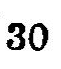30
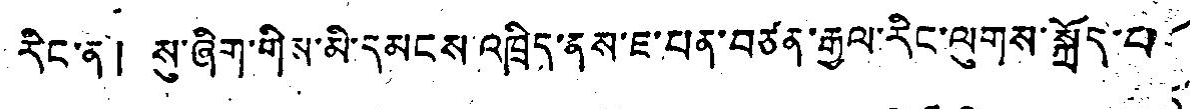རིང་ན། སུ་ཞིག་གིས་མི་དམངས་འཁྲིད་ནས་ཇ་པན་བཙན་རྒྱལ་རིང་ལུགས་སྐྱོད་པ་
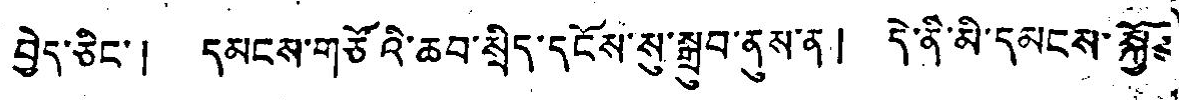བྱེད་ཅིང་། དམངས་གཙོའི་ཆབ་སྲིད་དངོས་སུ་སྒྲུབ་ནས་ན། དེ་ནི་མི་དམངས་སྐྱོན་
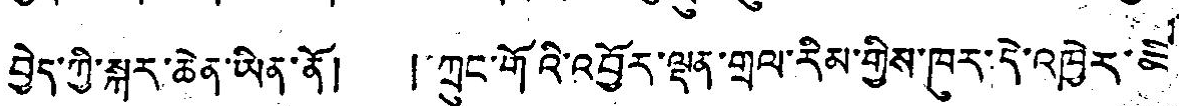བྱེད་ཀྱི་སྐར་ཆེན་ཡིན་ནོ། ། ཀྲུང་གོའི་འབྱོར་ལྡན་གྲལ་རིམ་གྱིས་ཁུར་དེ་འཁྱེར་མི
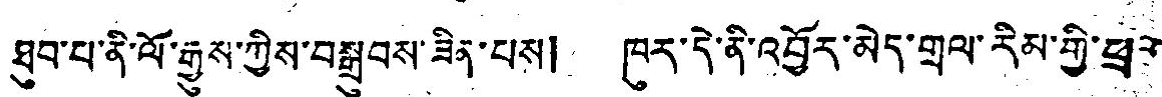ཐུབ་པ་ནི་ལོ་རྒྱུས་ཀྱིས་བསྒྲུབས་ཟིན་པས། ཁུར་དེ་ནི་འབྱོར་མེད་གྲལ་རིམ་གྱི་ཕྲན་
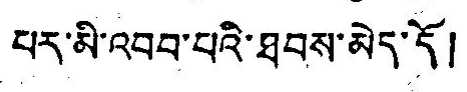པར་མི་འབབ་པའི་ཐབས་མེད་དོ།
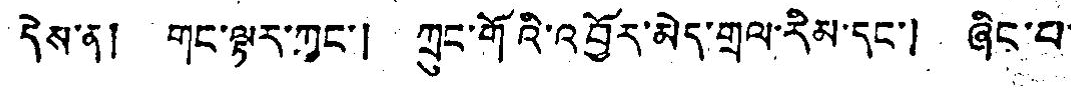དེས་ན། གང་ལྟར་ཀྱང་། ཀྲུང་གོའི་འབྱོར་མེད་གྲལ་རིམ་དང་། ཞིང་བ་
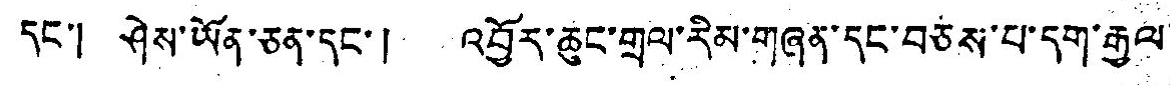དང་། ཤེས་ཡོན་ཅན་དང་། འབྱོར་ཆུང་གྲལ་རིམ་གཞན་དང་བཅས་པ་དག་རྒྱལ་
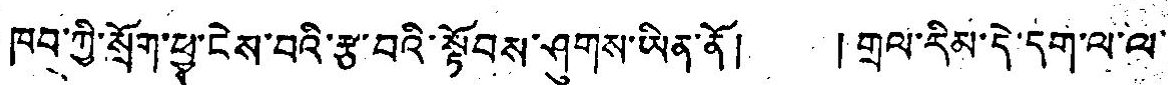ཁབ་ཀྱི་སྲོག་ཕྱ་ངེས་བའི་རྩ་བའི་སྟོབས་ཤུགས་ཡིན་ནོ། །གྲལ་རིམ་དེ་དག་ལ་ལ་
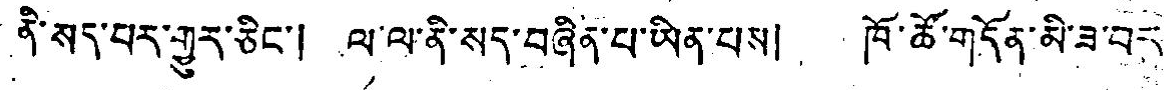ནི་སད་པར་གྱུར་ཅིང་། ལ་ལ་ནི་སད་བཞིན་པ་ཡིན་པས། ཁོ་ཚོ་གདོན་མི་ཟ་བར་
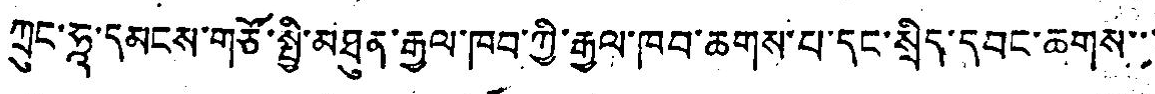ཀྲུང་ཧཱ་དམངས་གཙོ་སྤྱི་མཐུན་རྒྱལ་ཁབ་ཀྱི་རྒྱལ་ཁབ་ཆགས་པ་དང་སྲིད་དབང་ཆགས་་་
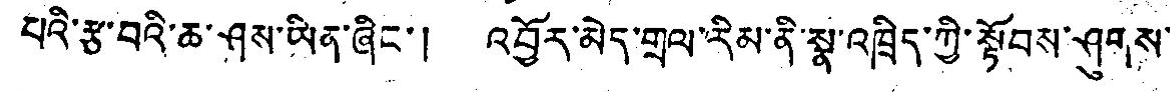པའི་རྩ་བའི་ཆ་ཤས་ཡིན་ཞིང་། འབྱོར་མེད་གྲལ་རིམ་ནི་སྣ་འཁྲིད་ཀྱི་སྟོབས་ཤུགས་
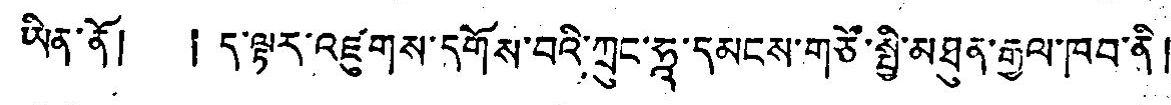ཡིན་ནོ། ། ད་ལྟར་འཛུགས་དགོས་བའི་ཀྲུང་ཧཱ་དམངས་གཙོ་སྤྱི་མཐུན་རྒྱལ་ཁབ་ནི།
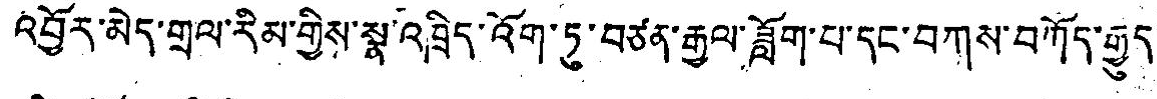འབྱོར་མེད་གྲལ་རིམ་གྱིས་སྣ་འཁྲིད་འོག་ཏུ་བཙན་རྒྱལ་ཟློག་པ་དང་བཀས་བཀོད་རྒྱུད་
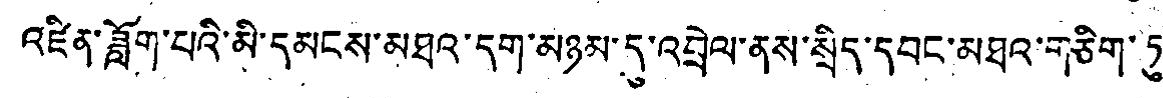འཛིན་ཟློག་པའི་མི་དམངས་མཐའ་དག་མཉམ་དུ་འབྲེལ་ནས་སྲིད་དབང་མཐའ་གཅིག་ཏུ་
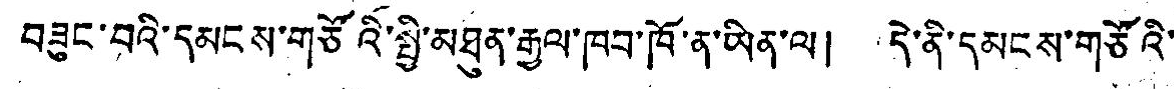བཟུང་བའི་དམངས་གཙོའི་སྤྱི་མཐུན་རྒྱལ་ཁབ་ཁོ་ན་ཡིན་ལ། དེ་ནི་དམངས་གཙོའི་
